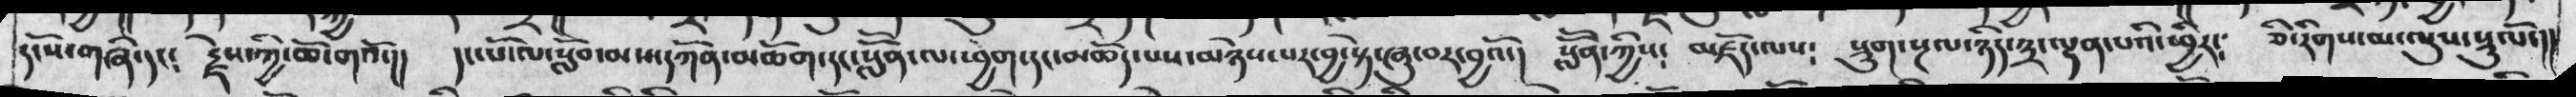དངོས་གཞི་དང༴  རྗེས་ཀྱི་ཆོ་གའོ་།།  དང་པོ་ལ་སློབ་མས་དཀོན་མཆོག་དང་སློོན་ལ་ཕྱག་དང་མཆོད་པས་མཉེས་པར་བྱ་སྟེ་ཞུ་བར་བྱའོ་།   སློོན་ཀྱིས༴  མཛོད་ལས༴  སྡུག་སྔལ་ཉིད་༣་ལྡན་པའི་ཕྱིར༴   ཅི་རིགས་མ་ལུས་སྡུལོ་།།
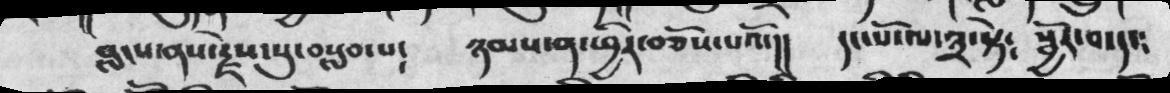བླངས་ནས་རྗེས་སུ་བསླབ་པ༴  ཉམས་ན་ཕྱིར་བཅོས་པའོ་།།  དང་པོ་ལ་༣་སྟེ༴  སྦྱོར་བ་དང༴
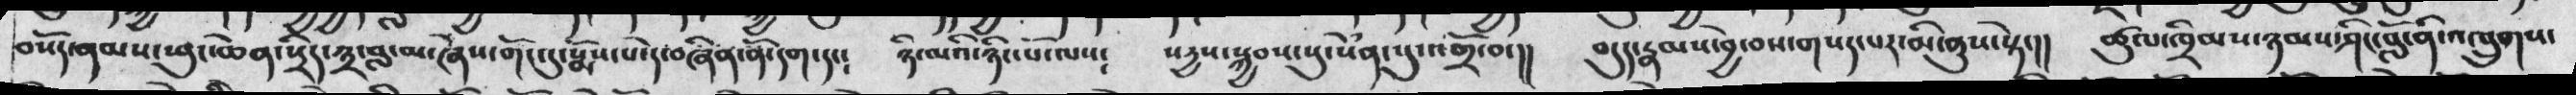བསོད་ནམད་ཕུང་ཆེན་སྲིད་༣་བླ་མ་ཞེས་གོང་དུ་སྨོས་པ་དེ་བཞིན་ནོ་དག་དང༴  ཉི་མའི་ཉིང་པོ་ལས༴  བདུད་རྣམས་བྱེ་བས་གསར་པར་མི་ནུས་སྟེ་།།  ཚུལ་ཁྲིམས་ཉམས་ཤིང་བློ་ནི་འཁྲུགས་
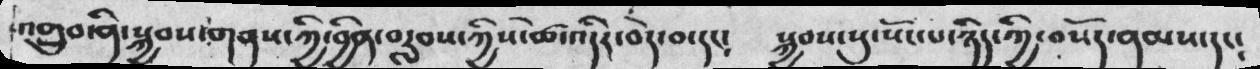འགྲུབ་ནི་སྐྱབས་གནས་ཀྱི་བྱིན་བརླབས་ཀྱིས་ཚེ་འདིར་བདེ་བ་དང༴  སྐྱབས་སུ་སོངས་པ་ཉིད་ཀྱི་བསོད་ནམས་དང༴
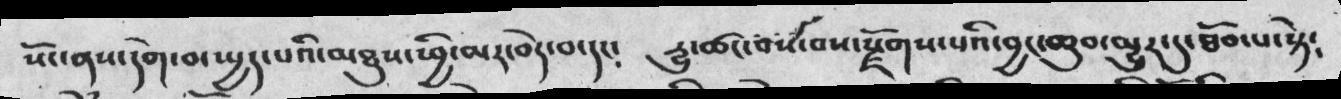སོང་ནས་དགེ་བ་སྤྱད་པའི་མཐུས་ཕྱི་མར་བདེ་བ་དང༴  རྱུ་ཚང་བས་བས་རྫོགས་པའི་བྱང་ཆུབ་མྱུར་དུ་ཐོབ་པ་སྟེ༴
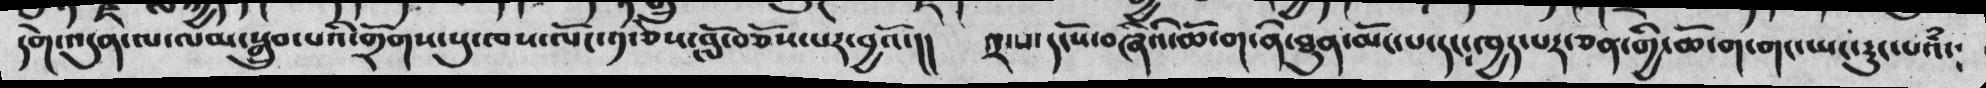དགེ་འདུན་ལམ་སྒྲུབ་པའི་གྲོགས་སུ་ཁས་ལོང་༡་ཅེས་བློ་བཅོས་པར་བྱའོ་།།  ༢་པ་དངོས་བཞིའི་ཆོ་ག་ནི་ཐུན་མོངས་པ་དང་ཁྱད་པར་ཅན་གྱི་ཆོ་ག་ངག་ཡང་རུང་བའཾ།
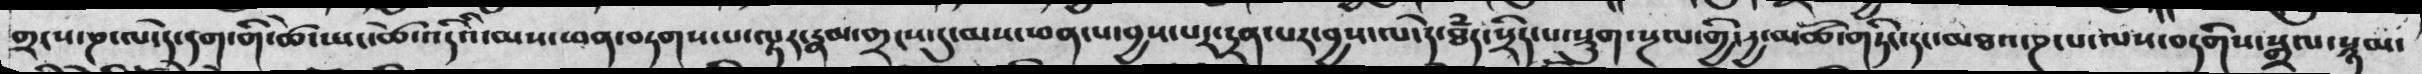གྲངས་ཎ་ལ་དེ་དག་གི་ཚེ་འདའི་མས་ཕན་བཏགས་པ་ལྟར་རྣམ་གྲངས་དུ་མས་ཕན་པ་བྱས་པར་དྲན་པར་བྱས་ལ་དེ་ཐཾད་སྲིད་པ་སྡུག་སྔལ་གྱི་རྒྱ་མཚོ་གཏིང་དང་མཐའ་ཎ་པ་ལས་བདགིས་སྒྲལ་སྙམ་
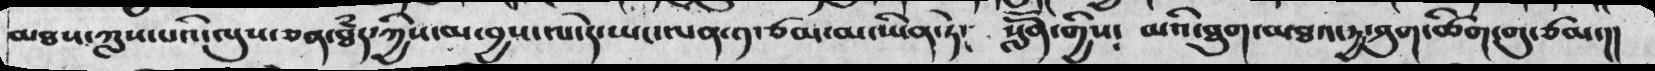མཐས་ཀླས་པའི་ལུས་ཅན་ཐདྃ་ཀྱིས་མ་བྱས་ལ་དེ་ཡང་ལན་༡ཙམ་མ་ཡིན་ཏེ།  སློོན་གྱིས༴  མའི་ཐུག་མཐའ་རྒྱ་ཤུག་ཚིག་གུ་ཙམ་།།
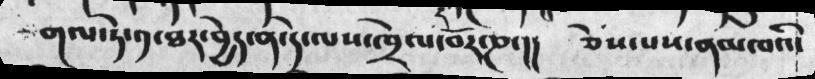གལ་ཏེ་༡་ཐར་བྱེད་ན་དེ་ལས་ཁྲེལ་བོར་ཎ་།།    ཅེས་པས་ནམཁའི་
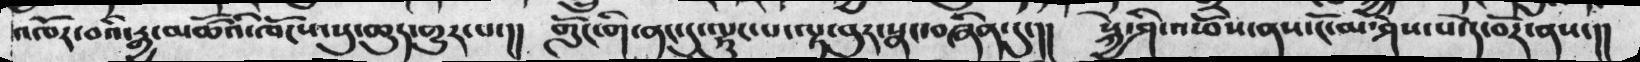འཁོར་བའི་རྒྱ་མཚོའི་ཁོངས་སུ་ཆུད་གྱུར་པ་།།     གློང་གི་ནང་དུ་ལྷུང་པ་ལྟ་བུར་སྣང་བཞིན་དུ་།།    སྐྱེ་ཤི་འཕོས་ནས་ངོ་མ་ཤེས་པ་དེ་བོར་ནས་།།
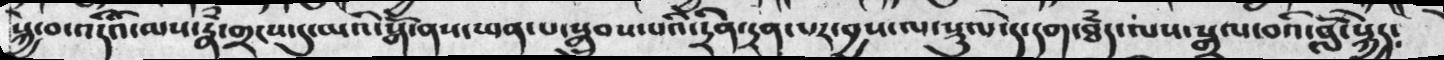སྐྱེ་བ་འདིའི་མས་རྣཾ་གྲངས་དུ་མའི་སྒོ་ནས་ཕན་པ་སྒྲུབས་པའི་དྲིན་དྲན་པར་བྱས་ལ་སྡུལ་དེ་དག་ཐཾད་ལས་སྒྲལ་བའི་བློ་སྐྱེད༴
